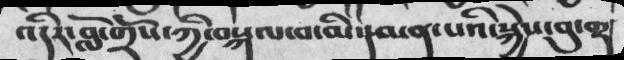འདིར་བློ་གྲོས་ཀྱི་བསྐལ་བ་མི་དམན་པའི་སྐྱེས་བུ་གྷ
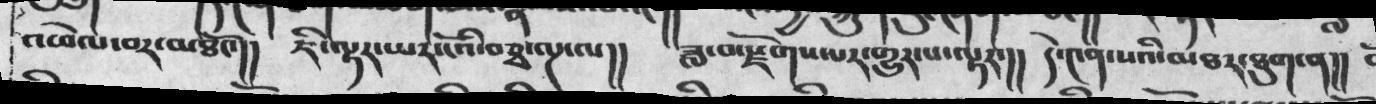འཕེལ་བར་མཐོང་།།  ཇི་ལྟར་ཡར་ངོའི་བཅྭ་ལྔ་ལ།།  ཟླ་བ་སྫོགས་པར་གྱུར་པ་ལྟར་།།  དེ་༤ན་སའི་མཐར་ཐུག་ན།།
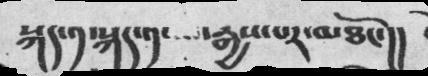སྐད་༡་སྐད་༡་ ་རྒྱས་པར་མཐོང་།།
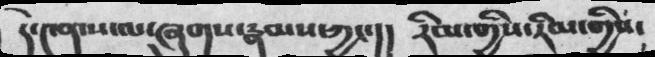དེ་༤ན་ས་ལ་ཞུགས་རྣམས་ཀྱང་།། རིམ་གྱིས་རིམ་གྱིས་
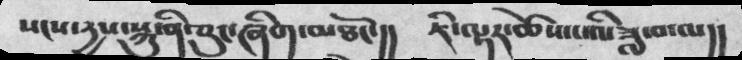སངས་དྱས་སྐུ་ནི་ཅུང་ཞིག་མཐོང་།། ཇི་ལྟར་ཚེས་པའི་ཟླ་བ་ལ།།
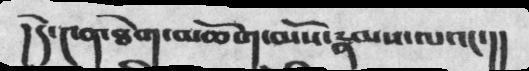།དེ་༤ན་ཐེག་མཆོག་མོས་རྣམས་ལའང་།།
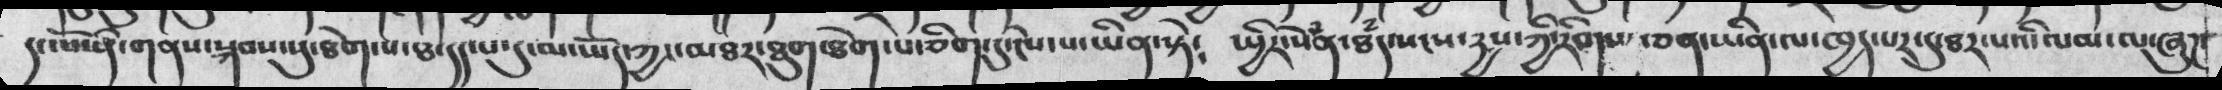དང་པོ་ནི་གནས་སྐབས་སུ་ཐེག་པ་ཐ་དད་པ་དུ་མ་ཡོད་ཀྱང་མཐར་ཐུག་ཐེག་པ་ཅིག་དུ་ངེས་པ་ཡིན་སྟེ༴  སྤྱིར་སེཾན་ཐཾད་སངས་རྱས་ཀྱི་རིགས་ཅན་ཡིན་ལ་ཁྱད་པར་དུ་ཐར་པའི་ལམ་ལ་ཞུཌ་
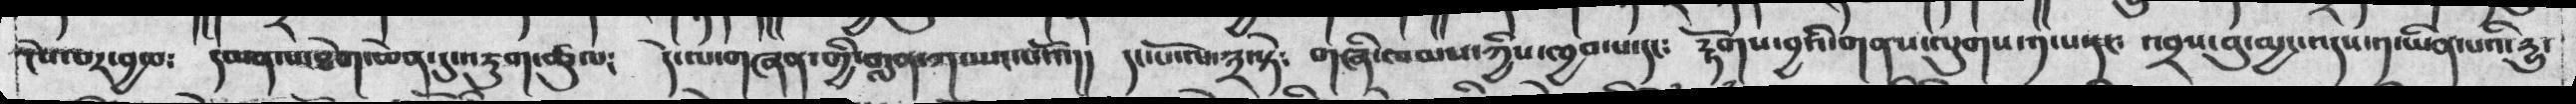ངེས་པར་བྱམ༴ དམན་པ་ཐེག་ཆེན་དུ་འཇུག་ཚུལ༴   དེ་ལ་གཞན་གྱི་གླན་ཀ་ཡང་པའོ་།། དང་པོ་ལ་༣་སྟེ༴ གཞི་ཁམས་ཀྱིས་ཁྱབ་པ་དང༴  རྟོགས་བྱའི་གནས་ལུགས་༡་པ་དང༴ འབྲས་བུ་མྱང་འདས་༡་ཡིན་པའི་རྱུ་
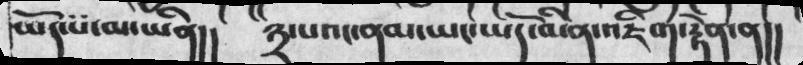ཡོད་པ་མ་ཡིན།།  ༣་པའང་ནམ་ཡང་ཡོད་མིན་འཇིག་རྟེན་ན།།
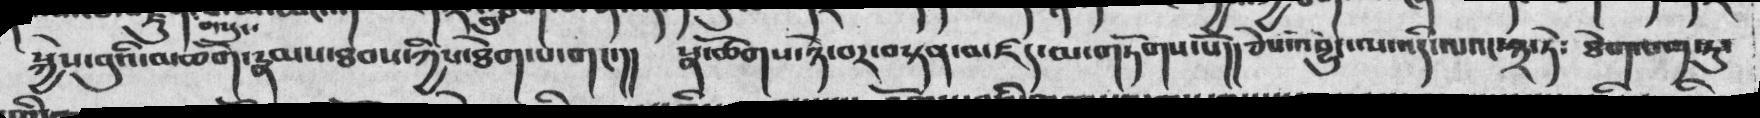སྐྱེས་བུའི་མཆོག་རྣམས་ཐབས་ཀྱིས་ཐེག་པ་གང་།།   སྣ་ཚོགས་ཉེ་བར་བསྟན་མཛད་མ་གཏོགས་སོ།། ཅེས་འབྱུང་ལ་འདི་ལའང་༣་ཏེ༴   ཐེག་པ་༡་ཏུ་
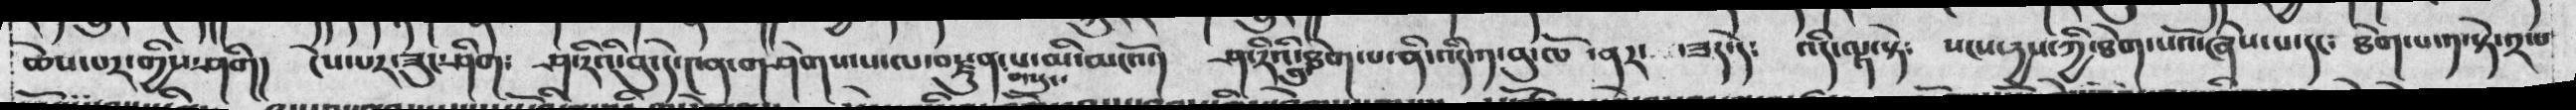ཆེས་པར་གྱིས་ཤིག།  ངེས་པར་ཟུང་ཤིག༴  ཤ་རིའི་བུ་དེ་༤ན་གཤེགས་པ་ལ་་བརྫུན་གསུང་པ་མི་མངའོ་།   ཤ་རིའི་བུ་ཐེག་པ་ནི་འདི་༡་བུ་ཁོ་ ནར་ཟད་དེ༴    འདི་ལྟ་སྟེ༴   སངས་དྱས་ཀྱི་ཐེག་པའོ་ཞེས་པ་དང༴  ཐེག་པ་༡་སྟེ་༢་པ
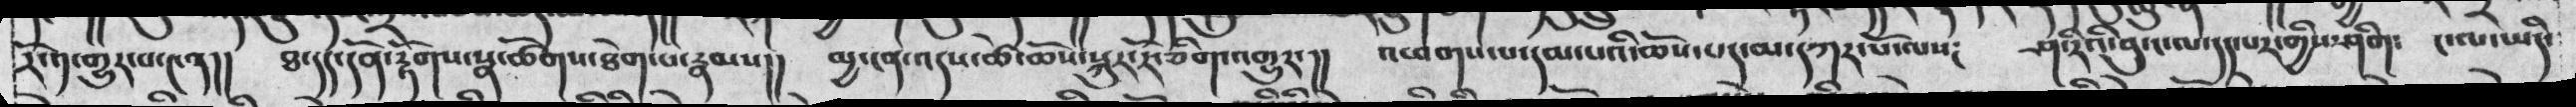རོ་༡་གྱུར་པ་༤ན།།  ཐ་དད་དོན་རྟོགས་སྣ་ཚོགས་ཐེག་པ་རྣམས།། མྱ་ངན་འདས་ཚེ་ཆོས་སྐུར་རོ་ཅིག་འགྱུར་།།  འཕགས་པ་དམ་པའི་ཆོས་པད་མ་དཀར་པོ་ལས༴  ཤ་རིའི་བུ་ལ་དད་པར་གྱིས་ཤིག༴  ང་ལ་ཡིད་
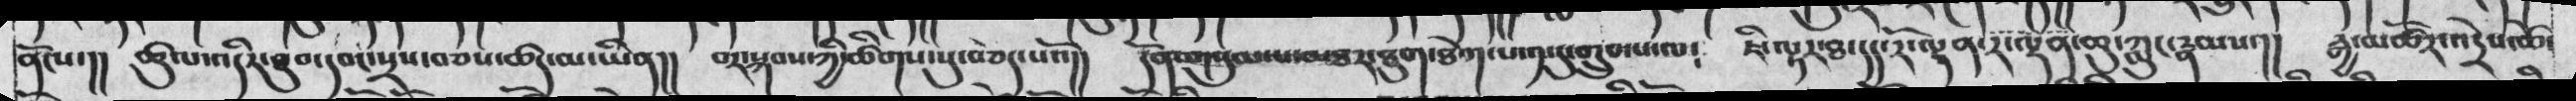ནོངས་།། ཚུལ་འདིར་ཐུབ་དབང་སྲས་བཅས་ཚད་མ་ཡིན།།  བར་སྐབས་ཀྱི་ཚིགས་སུ་བཅད་པའོ།།   དོན་གསུམ་པ་མཐར་ཐུག་ཐེག་པ་༡་དུ་གྲུབ་པ་ལ༴ ཇི་ལྟར་ཐ་དད་རོ་ལྡན་ར་ལྡན་ཆུ་ཀླུང་རྣམས་།།  རྒྱ་མཚོར་འདྲེས་ཚེ་
